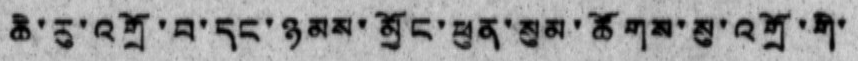ཆེ་རུ་འགྲོ་བ་དང་ཉམས་མྱོང་ཕུན་སུམ་ཚོགས་སུ་འགྲོ་གི་
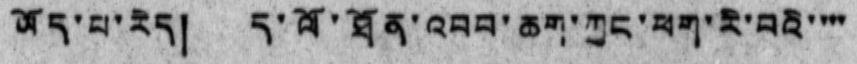ཡོད་པ་རེད། ད་ལོ་ཐོན་འབབ་ཆག་ཀྱང་ཕག་རི་བའི་་་་
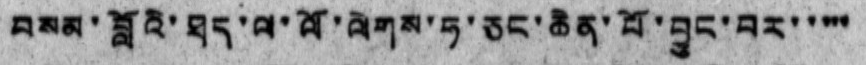བསམ་བློའི་ཐད་ལ་ལོ་ལེགས་ཧ་ཅང་ཆེན་པོ་བྱུང་བར་་་་་
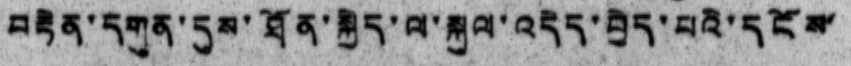བརྟེན་དགུན་དུས་ཐོན་སྐྱེད་ལ་སྐུལ་འདེད་བྱེད་པའི་དངོས་
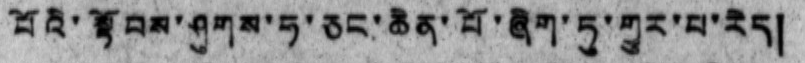པོའི་སྟོབས་ཤུགས་ཧ་ཅང་ཆེན་པོ་ཞིག་ཏུ་གྱུར་པ་རེད།
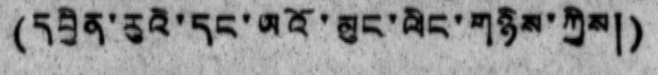(དབྱིན་རུའི་དང་ཡའོ་མུང་ལིང་གཉིས་ཀྱིས།)
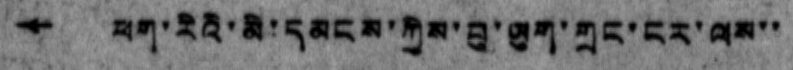← ཕག་རིའི་མི་དམངས་ཀྱིས་བུ་ཡུག་གྲང་ངར་ལས་་
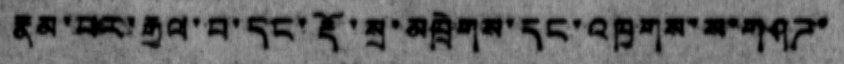རྣམ་པར་རྒྱལ་བ་དང་རྡོ་སྲ་མཁྲེགས་དང་འཁྱགས་ས་གཤཌ་
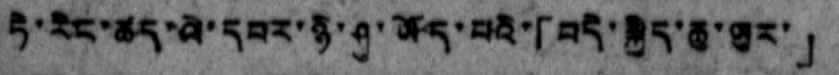ཏེ་རིང་ཚད་ལེ་དབར་ཉི་ཤུ་ཡོད་པའི་「བདེ་སྐྱིད་ཆུ་ཡུར་」
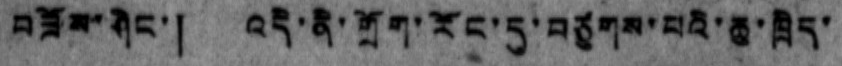བཟོས་ཤིང་། འདི་ནི་གྲོག་རོང་དུ་བཙུགས་པའི་ཆུ་ཁྲིད་
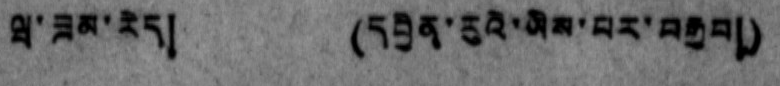ཝ་ཟམ་རེད། (དབྱིན་རུའི་ཡིས་པར་བརྒྱབ།)
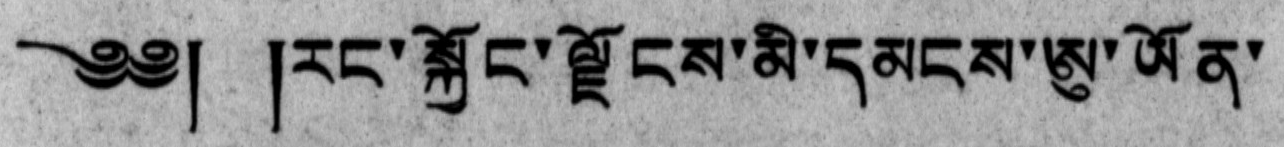༄༅། །རང་སྐྱོང་ལྗོངས་མི་དམངས་ཨུ་ཡོན་
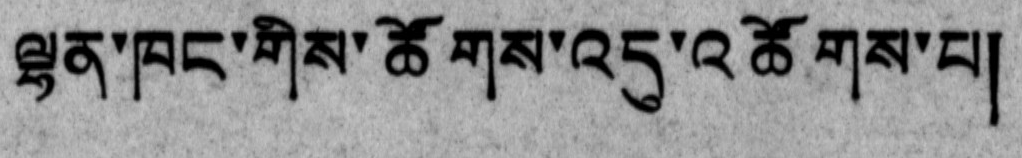ལྷན་ཁང་གིས་ཚོགས་འདུ་འཚོགས་པ།
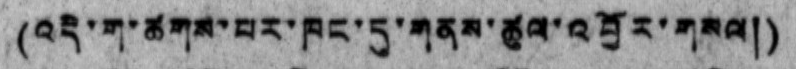(འདི་རྒ་ཚགས་པར་ཁང་དུ་གནས་ཚུལ་འབྱོར་གསལ།)
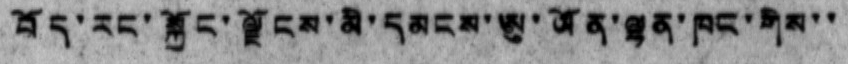བོད་རང་སྐྱོང་ལྗོངས་མི་དམངས་ཨུ་ཡོན་ལྷན་ཁང་གིས་་
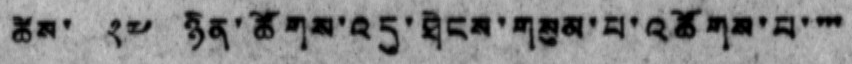ཚེས་ ༢༧ ཉིན་ཚོགས་འདུ་ཐེངས་གསུམ་པ་འཚོགས་བ་་་་
